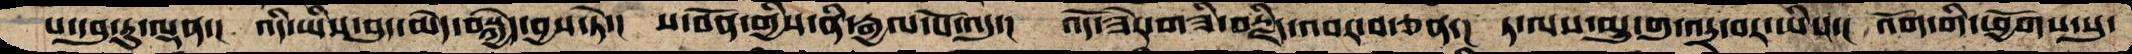པ་དབུ་རུ་ལྡན་།  འདི་ཡིས་བུད་མེད་བསྐྱེད་བྱས་ཏེ་།  ས་བོན་གྱིས་ནི་རྒྱལ་པོ་འདུ་།  འོད་ཟེར་གཟི་བརྗིད་འབར་བ་ཅན་།  ཏ་ལས་མྱུ་གུ་འདྲ་བར་ཡིས་།  འོག་གི་ཕྱོགས་སུ་
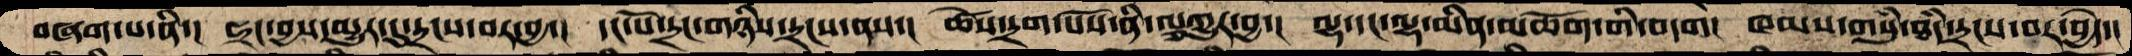བཞག་པ་ནི་།  ཧྲང་བྱས་མྱུར་དུ་དྲངས་བར་བྱ་།  དང་པོ་དྲང་གཉིས་དྲངས་ནས་།  ཚེས་དྲག་པོས་ནི་ལྕཀྱུར་བྱ་།  ལྷ་དང་ལྷ་མིན་མཆོག་གི་བདག།  ཁམས་གསུམ་ཐཾད་དྲངས་བར་བྱེད་།
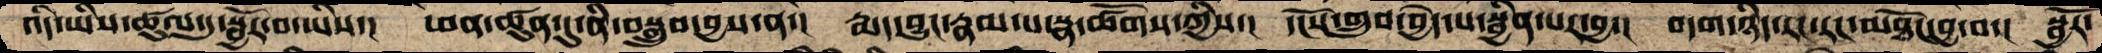འདི་ཡིས་ཚུལ་དུ་སྦྱོར་བ་ཡིས་།  ཕན་ཚུན་དུ་ནི་བསྒྲུབ་བྱས་ན་།  རྨད་བྱུང་རྣམ་པ་སྣ་ཚོགས་ཀྱིས་།  དངོས་གྲུབ་བྱེད་པ་སྦྱིན་པར་བྱ་།  བདག་ཉིད་རང་རང་མཐོང་བྱ་བ་།  སྦྱོར་
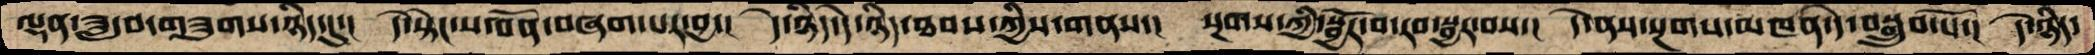ལྡན་ཟླ་བ་གཟུགས་ཉིད་དུ་།  དེ་སྟེང་ས་བོན་བཞག་པར་བྱ་།  དེ་ཉིད་དེ་ཉིད་ཐབས་ཀྱིས་གནས་།  སྔགས་ཀྱི་སྦྱོར་བ་རབ་སྦྱར་བས་།  དེ་ནས་སྔགས་མཁན་དེ་བསྒྲུབ་པོ་།   དེ་ཉིད་
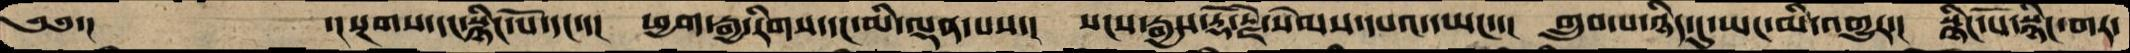༄༅་།       ་།སྔགས་དང་སྙིང་པོ་དང་་།  ཕྱག་རྒྱ་རིགས་དང་མི་ལྡན་པས་།  སངས་རྒྱས་རྡོ་རྗེ་སེམས་དཔའ་ཡང་་།  གྲུབ་པ་ཉིད་དུ་ཡང་མི་འགྱུར་།  སྙིང་པོ་སྙིང་གར་
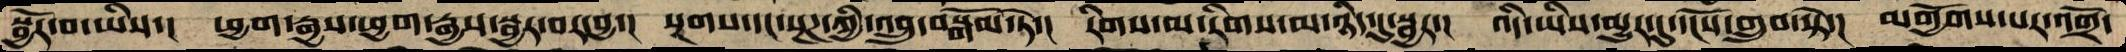སྦྱོར་བ་ཡིས་།  ཕྱག་རྒྱས་ཕྱག་རྒྱས་སྦྱར་བར་བྱ་།  སྔགས་དང་སྔཌ་ཀྱི་འབྲུ་བསྒོམ་ཏེ་།  རིགས་མ་རིགས་མ་ཉིད་དུ་སྦྱར་།  འདི་ཡིས་མུར་དུ་དངོས་གྲུབ་སྟེ་།  མགྱོགས་པར་འགྲོ་
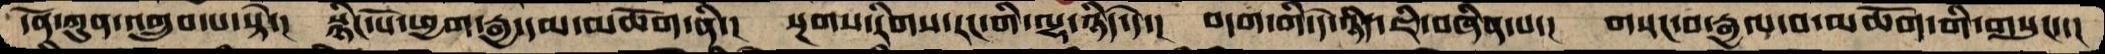དོན་ཀུན་འགྲུབ་པ་སྟེ་།  སྙིང་པོ་ཕྱག་རྒྱ་དམ་མཆོག་ནི་།  སྔགས་རིགས་རང་གི་ལྷ་ཉིད་དེ་།  བདག་གི་དེ་ཉིད་ཇི་བཞིན་པ་།  གསང་བ་རྒྱལ་བ་མཆོག་གི་གསུང་་།
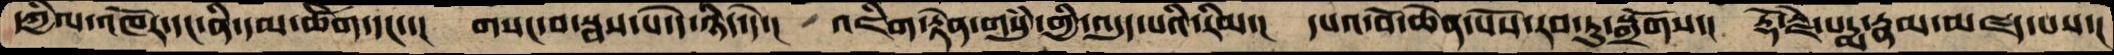དཀྱིལ་འཁོར་དང་ནི་དམ་ཚིག་དང་་།  གསང་བ་སྦས་པ་དེ་ཉིད་དེ་།  འཇིག་རྟེན་གསུཾ་གྱི་འདུད་པའི་རིམ་།  དཔའ་བོ་ཆེན་པོས་རབ་ཏུ་སྒྲོགས་།  རྡོ་རྗེ་པདྨ་རྣམ་མཛད་པས་།
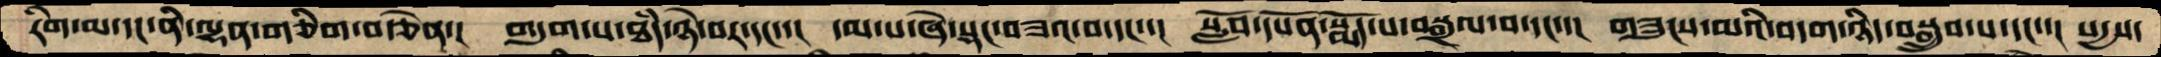རིག་མ་དང་ནི་ལྷན་གཅིག་བརྩེན་།  གདུག་པ་ཐཾད་ཉེ་བར་དང་་།  དམ་པ་ཞེ་སྡང་བཟའ་བ་དང་་།  སློབ་དཔོན་སྨོད་པ་བསྒྲལ་བ་དང་་།  གཟུངས་མའི་བདག་ཉིད་བསྒྲུབ་པ་དང་་།  སདྱས་
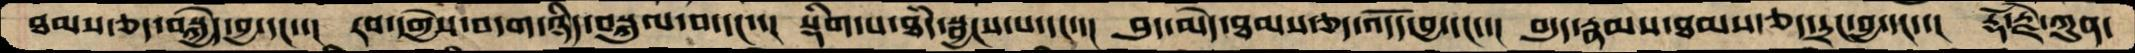ཐམས་ཅད་བསྐྱེད་བྱ་དང་་།  རབ་དགྱེས་བདག་ཉིད་བསྐུལ་བ་དང་་།  སྡིག་པ་ཐཾད་སྦྱངས་པ་དང་་།  བུད་མེད་ཐམས་ཅད་འདོད་བྱ་དང་་།  བདུད་རྣམས་ཐམས་ཅད་དྲང་བྱ་དང་་།  རྡོ་རྗེ་ཀུན་
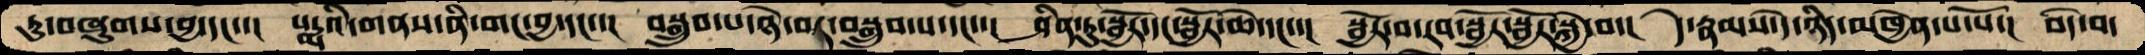ཏུ་བཞུགས་བྱ་དང་་།  པདྨའི་གནས་ནི་གང་བྱ་དང་་།  བསྒྲུབ་པ་ཉེ་བར་བསྒྲུབ་པ་དང་་།  ཤིན་ཏུ་སྦྱོར་དང་སྦྱོར་ཆེ་དང་་། སྦྱོར་བ་རབ་སྦྱོར་སྦྱོར་སྐྱེ་བ་།  དེ་རྣམས་དེ་ཉིད་མཁྱེན་པ་པོ་།  བདེ་བ་
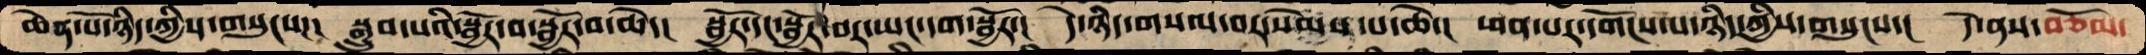ཆེན་པོཉིད་ཀྱིས་གསུངས་།  སྒྲུབ་པའི་སྦྱོར་བ་སྦྱོར་བ་ཆེ་།  སྦྱོར་དང་སྦྱོར་བར་ཡང་དག་སྦྱོར་།  དེ་ཉིད་གསལ་བར་སེམས་པ་ཆེ་།  ཕན་པར་དགོངས་པ་ཉིད་ཀྱིས་གསུངས་།  དེ་ནས་བཅོམ་
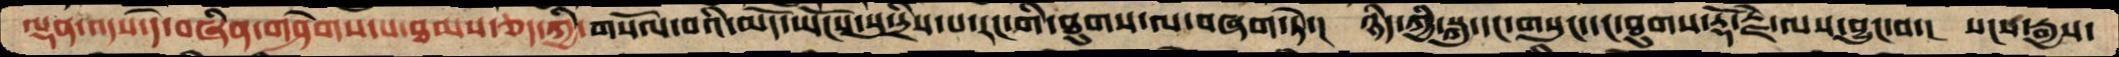ལྡན་འདས་དེ་བཞིན་གཤེགས་པ་ཐམས་ཅད་ཀྱི་གསོལ་བའི་མདོ་ཡོངས་སུ་དྲིས་པ་རང་གི་ཐུགས་ལ་བཞག་ཏེ་།  ཉིད་ཀྱི་སྐུ་དང་གསུང་དང་ཐུགས་རྡོ་རྗེ་ལས་བྱུང་བ་།  སངས་རྒྱས་
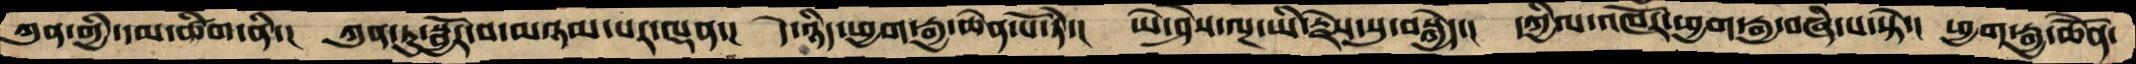ཀུན་གྱི་དམ་ཚིག་ནི་།  ཀུན་ཏུ་སྦྱོར་བ་མཉམ་པར་ལྡན་།  དེ་ཉིད་ཕྱག་རྒྱ་ཆེན་པོ་ཏེ་།  ཡེ་ཤེས་ལྔ་ཡི་རྗེས་སུ་བསྐྱེད་།  དཀྱིལ་འཁོར་ཕྱག་རྒྱ་བཞི་པ་སྟེ་།  ཕྱག་རྒྱ་ཆེོན་
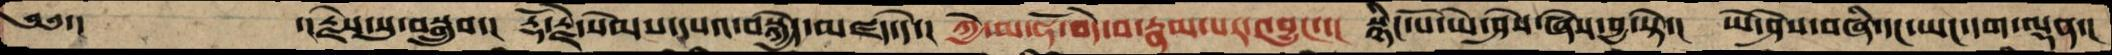༄༅་།    ་།རྗེས་སུ་བསྒྲུབ་།  རྡོ་རྗེ་སེམས་དཔའ་བསྐྱེད་མཛད་དེ་།  ཀྱེ་མ་ཧོ་བདེ་བ་རྣམ་པར་འབྱུང་་།  སྙིང་པོ་ཡེ་ཤེས་ཞེས་བྱ་སྟེ་།  ཡེ་ཤེས་བཞི་དང་ཡང་དག་ལྡན་།
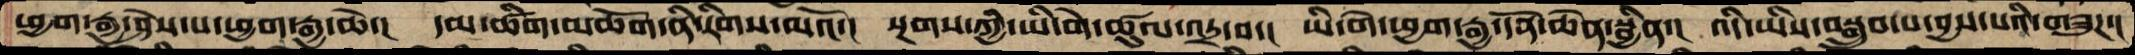ཕྱག་རྒྱ་ཤེས་པ་ཕྱག་རྒྱ་ཆེ་།  དམ་ཚིག་མཆོག་ནི་རིགས་མའོ་།  སྔགས་ཀྱི་ཡི་གེ་ཚུལ་འདྲ་བ་།  ཡི་གེ་ཕྱག་རྒྱ་དོན་ཆེན་སྦྱིན་།  འདི་ཡིས་བསྒྲུབ་པ་བྱས་པའི་གཟུཌ་།
